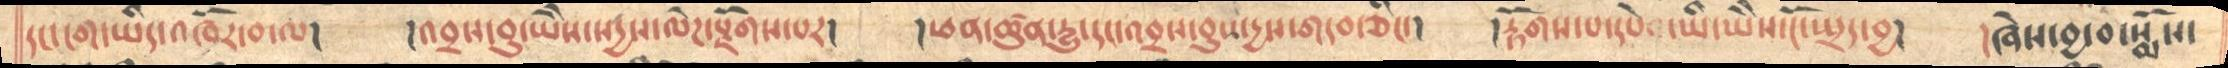དང་ངག་ཡིད་འཁོར་བ་ལ།  །འབྲས་བུ་ཡེེས་སདྱས་ལེཌ་སྫོགས་པར།  །ཕན་ཚུན་དྱུ་དང་འབྲས་བུས་དྱས་གདབ་ཅིང་།  །རྟོགས་པ་དཔེ ་ཡིད་ཡེེས་ངོ་སྤྲད་བྱ།  །ཞེས་བྱ་བ་སྨོས་
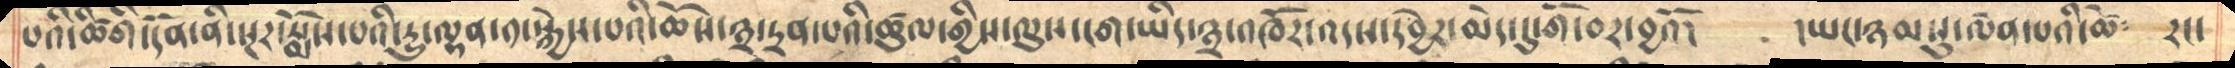པའི་ཚིགི་དོན་ནི་སྔར་སྨོས་པའི་དྱུ་ལྷན་༡་སྐྱེས་པའི་ཆོས་༣་དྲན་པའི་ཚུལ་གྱིས་ལུས་ངག་ཡིད་༣་འཁོར་འདས་དབྱེར་མེད་དུ་གོ་བར་བྱའོ།  །ཡང་ཉམསུ་ལེན་པའི་ཚེ༴ རང་
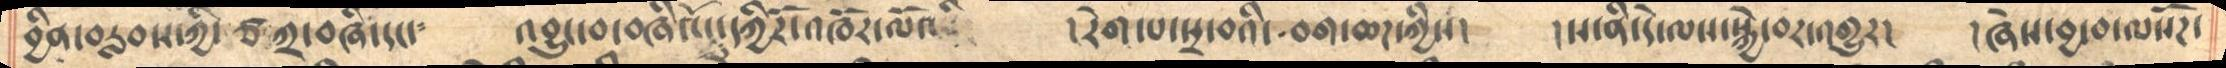བྱིན་བརླབས་ཀྱི་ཙཀྲ་བཞི་དང་༴  འབྱུང་བ་བཞིའོ་དཀྱིོར་འཁོར་ལོའི།   །རེག་པ་པྲ་བའི་བག་ཆཌ་ཀྱིས།  །ས་ནི་དེ་ལས་སྐྱེ་བར་འགྱུར།  །ཞེས་བྱ་བ་ལསོཌ་
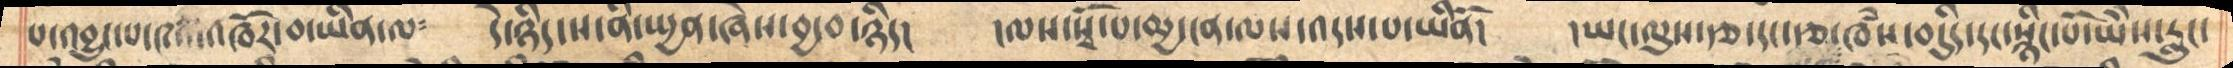པ་འབྱུང་པ་༤འི་འཁོར་བ་ཡིན་ལ༴ དེ་ཉིད་ས་ནི་སྤྱན་ཞེས་བྱ་བ་ཉིད།  །ལས་སྭོ་པ་མྱ་ངན་ལས་འདས་པ་ཡིནོ། །ཡང་ལུས་རྩ་དང་རྩ་ཁྃས་བདིུད་དང་སྙིང་པོ་ཡེེས་རླུང་
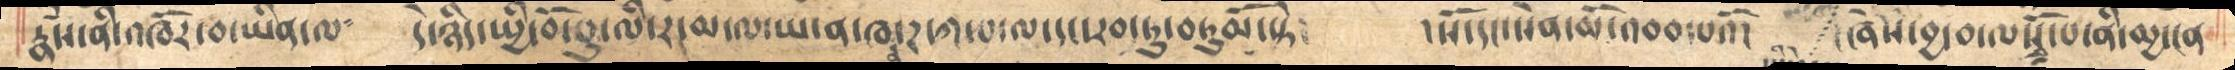རྣཾས་ནི་འཁོར་བ་ཡིན་ལ༴  དེ་ཉིད་སྤྱི་བོ་པུ་ལི་ར་མ་ལ་ཡ་ན་ཁན་ཌ་ཀ་པ་ལ་དང་རབ་ཏུ་བཏུམོ་སྟེ༴   །སོ་དང་སེན་མོ་འབབ་པའོ།   ཞེས་བྱ་བ་ལསྭོ་པ་ནི་མྱ་ངན
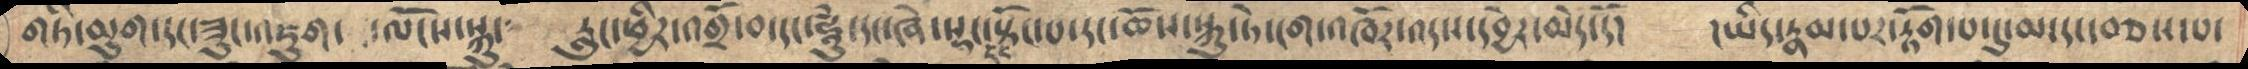གཏི་མུག་དང་ཟུང་འཇུག་  ་ལོངས་སྐུ་༴   རླུང་ཕྱིར་འགྲོ་བ་དང་ཧཱུཾ་དང་ཞེ་སྡང་དང་སྟོང་པ་རང་ཆོས་སྐུ་ཏེ་ངག་འཁོར་འདས་དབྱེར་མེད་དོ།  །ཡིད་རྣམ་པར་རྟོག་པ་དུ་མ་དང་བཅས་པ་
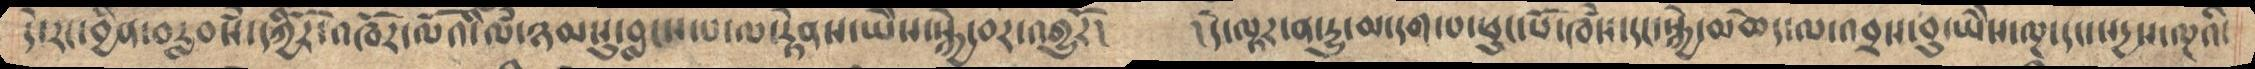དེ་རང་བྱིན་བརླབསྃ་དཀྱིརོ་འཁོར་ལོའི་ཉམསུ་བླངས་པ་ལ་རྟེནས་ཡེེས་སྐྱེ་བར་འགྱུརོ། །དེ་ལྟར་ན་དྱུ་མ་དག་པ་ཕུང་པོ་ཁྃས་དང་སྐྱེ་མཆེད་ལ་འབྲས་བུ་ཡེེས་ལྔ་དང་སདྱས་ལྔའི་
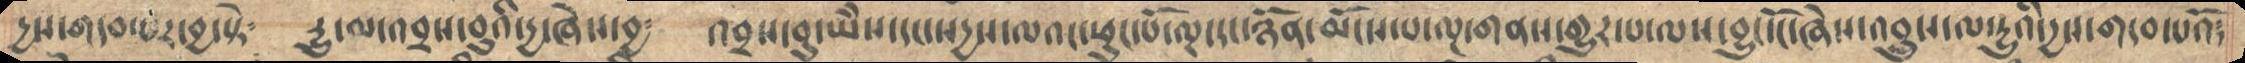དྱས་གདབ་པར་བྱ་སྟེ༴  དྱུ་ལ་འབྲས་བུའི་དྱ་ཞེས་བྱ༴ འབྲས་བུ་ཡེེས་དང་སདྱས་ལའང་ཕུང་པོ་ལྔ་དང་ཉོན་མོངས་པ་ལྔ་གནས་གྱུར་པ་ལས་བྱུང་ངོ་ཞེས་འབྲུས་ལ་དྱུའི་དྱས་གདབ་པའོ༴
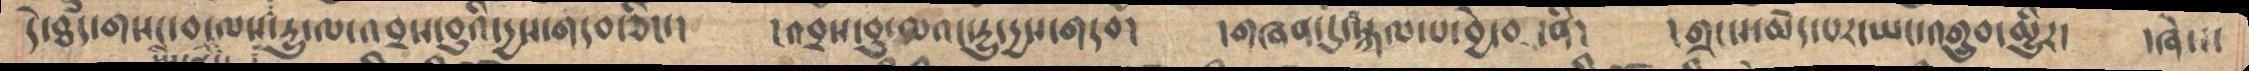དེ་ཐྃད་གསང་བ་ལས་དྱུ་ལ་འབྲས་བུའི་དྱས་གདབ་ཅིང་། །འབྲས་བུ་ལའང་དྱུ་དྱས་གདབ། །གཞན་དུ་སྐལ་པ་བྱེ་བ་ནི། །གྲངས་མེད་པར་ཡང་འགྲུབ་མྱིུར། །ཞེས་
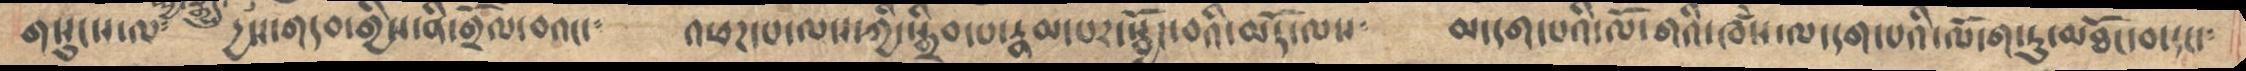གསུངས་ལ༴   དྱས་གདབ་གྱིས་ནི་གྲོལ་བའང་༴   འཕཌ་པ་ལས་ཀྱི་སྒྲིབ་པ་རྣམ་པར་སྦྱོང་བའི་མདོ་ལས༴   མ་དག་པའི་ལོ་གའི་ཁཾས་ལ་དག་པའི་ལོ་ག་རུ་མཐོང་བ་དང་༴
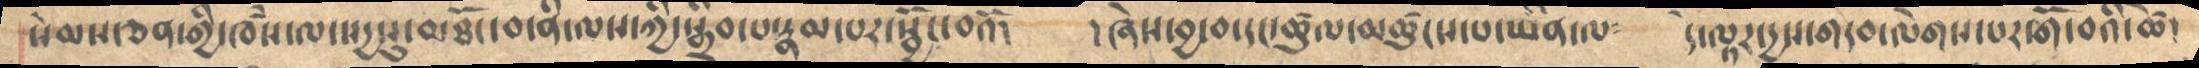སེམས་་ཅན་གྱི་ཁྃས་ལ་སདྱསུ་མཐོང་བ་ནི་ལས་ཀྱི་སྒྲིབ་པ་རྣམ་པར་སྦྱོང་བའོ།  །ཞེས་བྱ་བ་དང་ཚུལ་མཚུངས་པ་ཡིན་ལ༴    དེ་ལྟར་དྱས་གདབ་ལེགས་པར་གོ་བའི་ཚེ་
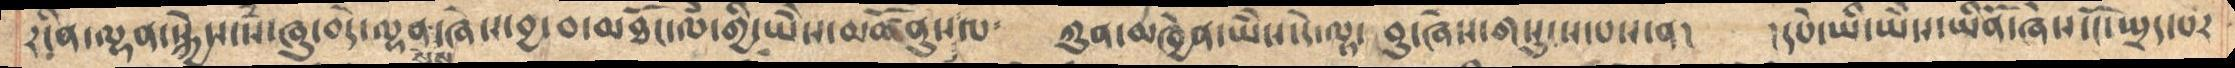རངིན་ལྷན་སྐྱེས་སཾ་ཞུ་བདེ་ལྷན་ཞེས་བྱ་བ་མཐོང་ལཾ་གྱི་ཡཻས་མཚོནུས་ལ༴  ཀུན་མཁྱེན་ཡཻས་དེ་ལྟ་བུ་ཞེས་གསུངས་པས་ན།  །དཔེ་ཡི་ཡཻས་ཡིནོ་ཞེས་ངོ་སྤྲད་པར
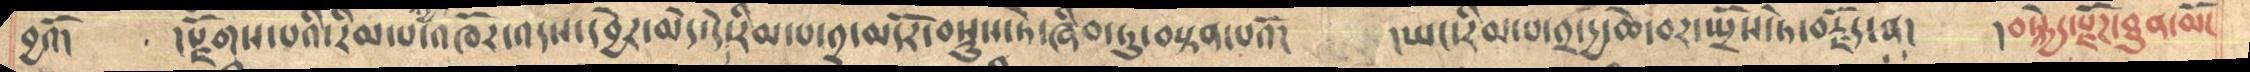བྱའོ།      །རྫོགས་པའི་རིམ་པ་འཁོར་འདས་དབྱེར་མེད་དེ་རིམ་པ་༢་མདོར་བསྡུས་ཏེ་ཞིབ་ཏུ་བསྟན་པའོ།    །ཡང་རིམ་པ་༢་དྱ་ཆེ་བར་སྤྲོས་ཏེ་བརྗོད་ན།    །བསྐྱེད་རྫོཌ་ཐུན་མོང
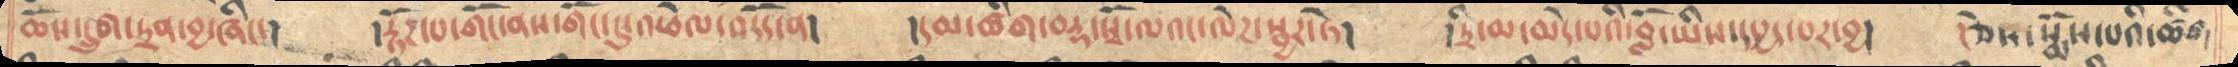ཆོས་དྲུག་དྲན་བྱ་ཞིང་།     །རྟོཌ་པ་གོང་ནས་གོང་དུ་འཕེལ་འདོད་ན།    །དམ་ཚིག་བརྡ་སྭོ་ལའང་ལེཌ་སྦྱར་ཏེ།        །དྲི་མ་མེད་པའི་བློ་ཡིས་དཔྱད་པར་བྱ།     །ཅེས་སྨོས་པའི་ཚིག
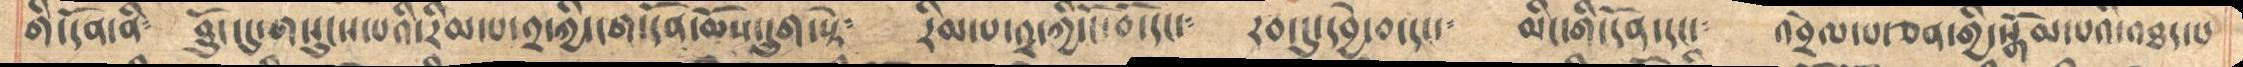གི་དོན་ནི་     ཐོུང་དུ་གསུངས་པའི་རིམ་པ་༢་ཀྱི་ངག་དོན་ཆོས་དྲུག་སྟེ༴     རིམ་པ་༢་ཀྱི་ངོ་བོ་དང་༴    རབ་དུ་དབྱེ་བ་དང་༴     མིང་གི་དོན་དང་༴   འབྲེལ་པ་ཅན་གྱི་སྒོམ་པའི་འཐད་པ
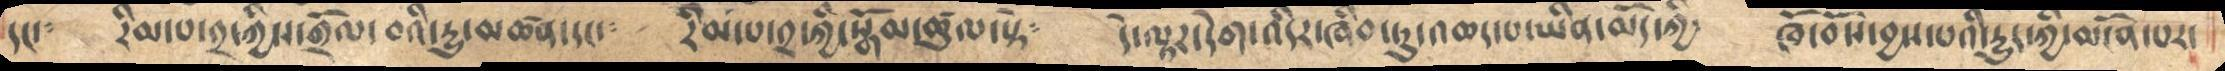དང་༴     རིམ་པ་༢་ཀྱིས་གྲོལ་བའི་དྱུ་མཚན་དང་༴     རིམ་པ་༢་ཀྱི་སྒོམ་ཚུལ་སྟེ༴     དེ་ལྟར་དེག་འདིར་ཞིབ་ཏུ་འཆད་པ་ཡིན་མོད་ཀྱི༴  ཁོ་བོས་བྱས་པའི་དྱུད་ཀྱི་མངོན་པར་
